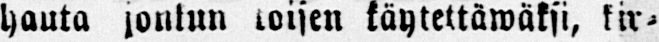hauta jonkun toisen käytettäwäksi, kir-
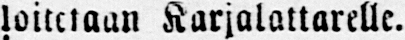loitetaan Karjalattarelle.
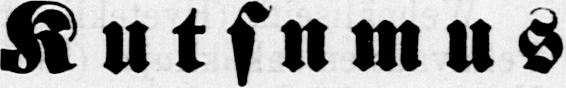Kutsumus
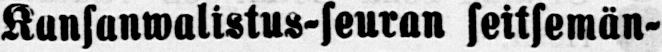Kansanwalistus-seuran seitsemän-
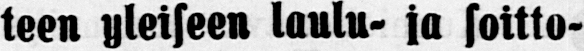teen yleiseen laulu- ja soitto-
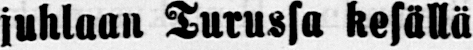juhlaan Turussa kesällä
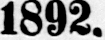1892.
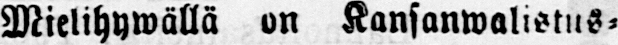Mielihywällä on Kansanwalistus-
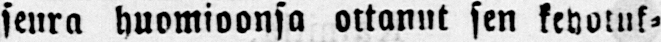seura huomioonsa ottanut sen kehotuk-
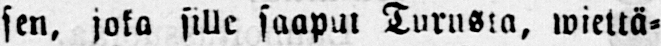sen, joka sille saapui Turusta, wiettä-
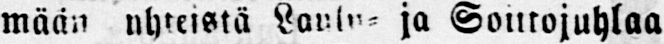mään yhteistä Laulu- ja Soittojuhlaa
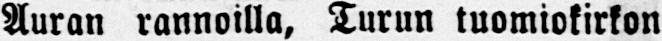Auran rannoilla, Turun tuomiokirkon
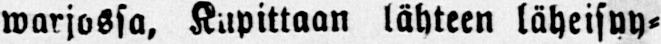warjossa, Kupittaan lähteen läheisyy-
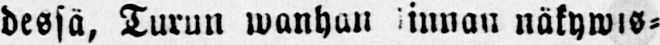dessä, Turun wanhan lnnan näkywis-
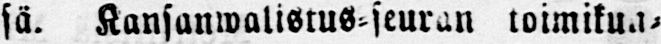sä. Kansanwalistus-seuran toimikun-
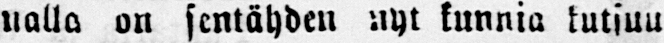nalla on sentähden nyt kunnia kutsuu
